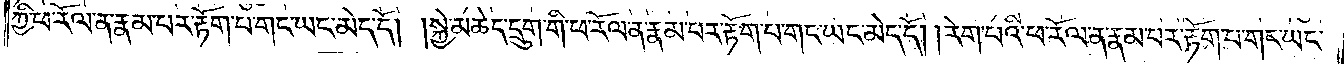ཀྱི་ཕ་རོལ་ན་རྣམ་པར་རྟོག་པ་གང་ཡང་མེད་དོ། །སྐྱེ་མཆེད་དྲུག་གི་ཕ་རོལ་ན་རྣམ་པར་རྟོག་པ་གང་ཡང་མེད་དོ། །རེག་པའི་ཕ་རོལ་ན་རྣམ་པར་རྟོག་པ་གང་ཡང་
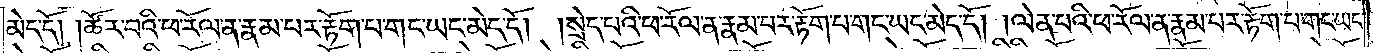མེད་དོ། །ཚོར་བའི་ཕ་རོལ་ན་རྣམ་པར་རྟོག་པ་གང་ཡང་མེད་དོ། །སྲེད་པའི་ཕ་རོལ་ན་རྣམ་པར་རྟོག་པ་གང་ཡང་མེད་དོ། །ལེན་པའི་ཕ་རོལ་ན་རྣམ་པར་རྟོག་པ་གང་ཡང་
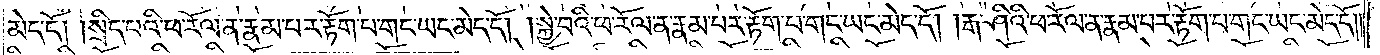མེད་དོ། །སྲིད་པའི་ཕ་རོལ་ན་རྣམ་པར་རྟོག་པ་གང་ཡང་མེད་དོ། །སྐྱེ་བའི་ཕ་རོལ་ན་རྣམ་པར་རྟོག་པ་གང་ཡང་མེད་དོ། །རྒ་ཤིའི་ཕ་རོལ་ན་རྣམ་པར་རྟོག་པ་གང་ཡང་མེད་དོ༎
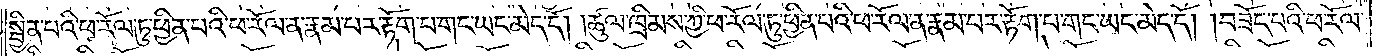སྦྱིན་པའི་ཕ་རོལ་ཏུ་ཕྱིན་པའི་ཕ་རོལ་ན་རྣམ་པར་རྟོག་པ་གང་ཡང་མེད་དོ། །ཚུལ་ཁྲིམས་ཀྱི་ཕ་རོལ་ཏུ་ཕྱིན་པའི་ཕ་རོལ་ན་རྣམ་པར་རྟོག་པ་གང་ཡང་མེད་དོ། །བཟོད་པའི་ཕ་རོལ་
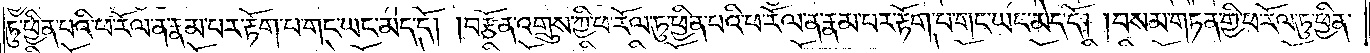ཏུ་ཕྱིན་པའི་ཕ་རོལ་ན་རྣམ་པར་རྟོག་པ་གང་ཡང་མེད་དོ། །བརྩོན་འགྲུས་ཀྱི་ཕ་རོལ་ཏུ་ཕྱིན་པའི་ཕ་རོལ་ན་རྣམ་པར་རྟོག་པ་གང་ཡང་མེད་དོ། །བསམ་གཏན་གྱི་ཕ་རོལ་ཏུ་ཕྱིན་
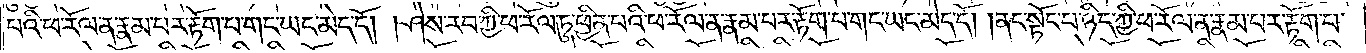པའི་ཕ་རོལ་ན་རྣམ་པར་རྟོག་པ་གང་ཡང་མེད་དོ། །ཤེས་རབ་ཀྱི་ཕ་རོལ་ཏུ་ཕྱིན་པའི་ཕ་རོལ་ན་རྣམ་པར་རྟོག་པ་གང་ཡང་མེད་དོ། །ནང་སྟོང་པ་ཉིད་ཀྱི་ཕ་རོལ་ན་རྣམ་པར་རྟོག་པ་
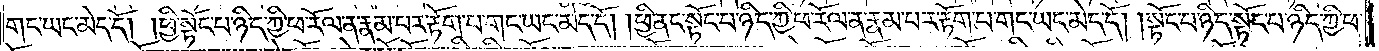གང་ཡང་མེད་དོ། །ཕྱི་སྟོང་པ་ཉིད་ཀྱི་ཕ་རོལ་ན་རྣམ་པར་རྟོག་པ་གང་ཡང་མེད་དོ། །ཕྱི་ནང་སྟོང་པ་ཉིད་ཀྱི་ཕ་རོལ་ན་རྣམ་པར་རྟོག་པ་གང་ཡང་མེད་དོ། །སྟོང་པ་ཉིད་སྟོང་པ་ཉིད་ཀྱི་ཕ་
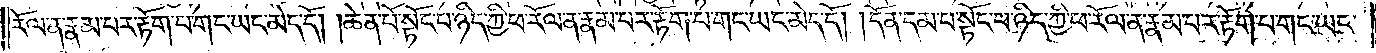རོལ་ན་རྣམ་པར་རྟོག་པ་གང་ཡང་མེད་དོ། །ཆེན་པོ་སྟོང་པ་ཉིད་ཀྱི་ཕ་རོལ་ན་རྣམ་པར་རྟོག་པ་གང་ཡང་མེད་དོ། །དོན་དམ་པ་སྟོང་པ་ཉིད་ཀྱི་ཕ་རོལ་ན་རྣམ་པར་རྟོག་པ་གང་ཡང་
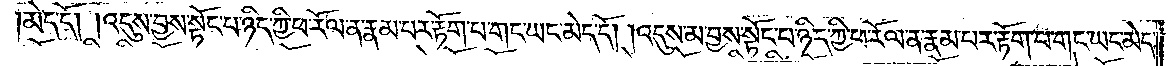མེད་དོ། །འདུས་བྱས་སྟོང་པ་ཉིད་ཀྱི་ཕ་རོལ་ན་རྣམ་པར་རྟོག་པ་གང་ཡང་མེད་དོ། །འདུས་མ་བྱས་སྟོང་པ་ཉིད་ཀྱི་ཕ་རོལ་ན་རྣམ་པར་རྟོག་པ་གང་ཡང་མེད་
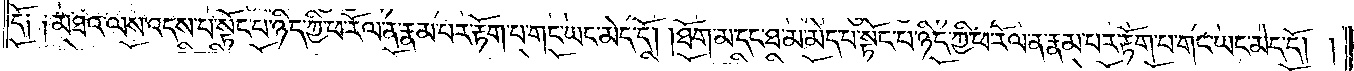དོ༑ ༑མཐའ་ལས་འདས་པ་སྟོང་པ་ཉིད་ཀྱི་ཕ་རོལ་ན་རྣམ་པར་རྟོག་པ་གང་ཡང་མེད་དོ། །ཐོག་མ་དང་ཐ་མ་མེད་པ་སྟོང་པ་ཉིད་ཀྱི་ཕ་རོལ་ན་རྣམ་པར་རྟོག་པ་གང་ཡང་མེད་དོ། །
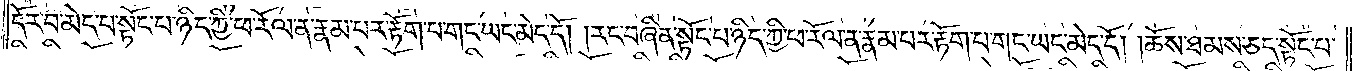དོར་བ་མེད་པ་སྟོང་པ་ཉིད་ཀྱི་ཕ་རོལ་ན་རྣམ་པར་རྟོག་པ་གང་ཡང་མེད་དོ། །རང་བཞིན་སྟོང་པ་ཉིད་ཀྱི་ཕ་རོལ་ན་རྣམ་པར་རྟོག་པ་གང་ཡང་མེད་དོ། །ཆོས་ཐམས་ཅད་སྟོང་པ་
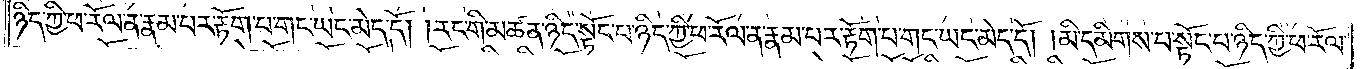ཉིད་ཀྱི་ཕ་རོལ་ན་རྣམ་པར་རྟོག་པ་གང་ཡང་མེད་དོ། །རང་གི་མཚན་ཉིད་སྟོང་པ་ཉིད་ཀྱི་ཕ་རོལ་ན་རྣམ་པར་རྟོག་པ་གང་ཡང་མེད་དོ། །མི་དམིགས་པ་སྟོང་པ་ཉིད་ཀྱི་ཕ་རོལ་
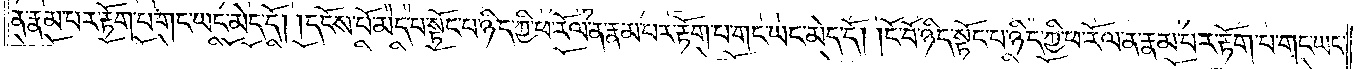ན་རྣམ་པར་རྟོག་པ་གང་ཡང་མེད་དོ། །དངོས་པོ་མེད་པ་སྟོང་པ་ཉིད་ཀྱི་ཕ་རོལ་ན་རྣམ་པར་རྟོག་པ་གང་ཡང་མེད་དོ། །ངོ་བོ་ཉིད་སྟོང་པ་ཉིད་ཀྱི་ཕ་རོལ་ན་རྣམ་པར་རྟོག་པ་གང་ཡང་
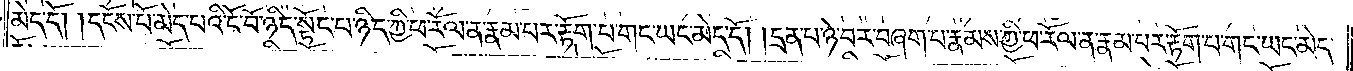མེད་དོ། །དངོས་པོ་མེད་པའི་ངོ་བོ་ཉིད་སྟོང་པ་ཉིད་ཀྱི་ ཕ་རོལ་ན་རྣམ་པར་རྟོག་པ་གང་ཡང་མེད་དོ། །དྲན་ པ་ཉེ་བར་བཞག་པ་རྣམས་ཀྱི་ཕ་རོལ་ན་རྣམ་པར་ རྟོག་པ་གང་ཡང་མེད་
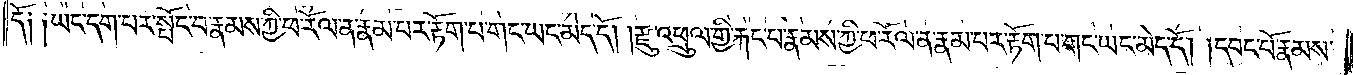དོ༑ ༑ཡང་དག་པར་སྤོང་བ་རྣམས་ཀྱི་ཕ་རོལ་ན་རྣམ་པར་རྟོག་པ་གང་ཡང་མེད་དོ། །རྫུ་འཕྲུལ་གྱི་རྐང་པ་རྣམས་ཀྱི་ཕ་རོལ་ན་རྣམ་པར་རྟོག་པ་གང་ཡང་མེད་དོ། །དབང་པོ་རྣམས་
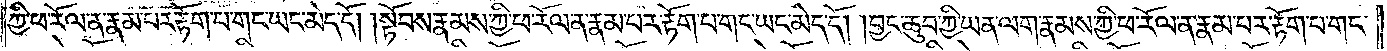ཀྱི་ཕ་རོལ་ན་རྣམ་པར་རྟོག་པ་གང་ཡང་མེད་དོ། །སྟོབས་རྣམས་ཀྱི་ཕ་རོལ་ན་རྣམ་པར་རྟོག་པ་གང་ཡང་མེད་དོ། །བྱང་ཆུབ་ཀྱི་ཡན་ལག་རྣམས་ཀྱི་ཕ་རོལ་ན་རྣམ་པར་རྟོག་པ་གང་
